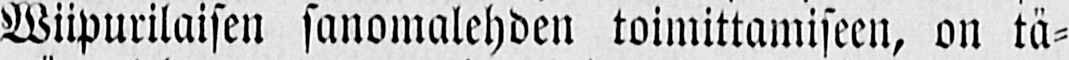Wiipurilaisen sanomalehden toimittamiseen, on tä-
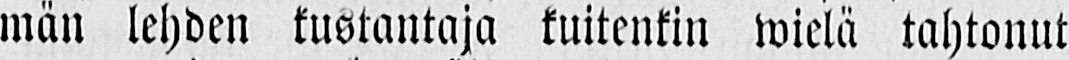män lehden kustantaja kuitenkin wielä tahtonut
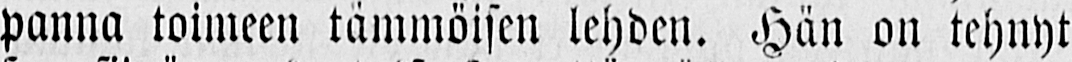panna toimeen tämmöisen lehden. Hän on tehnyt
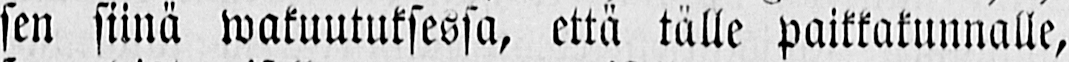sen siinä wakuutuksessa, että tälle paikkakunnalle,
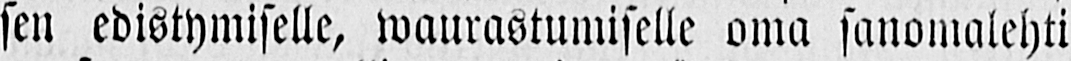sen edistymiselle, waurastumiselle oma sanomalehti
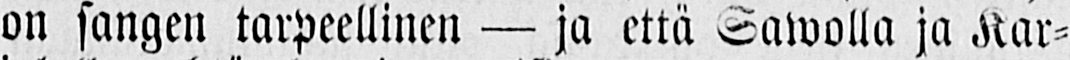on sangen tarpeellinen — ja että Sawolla ja Kar-
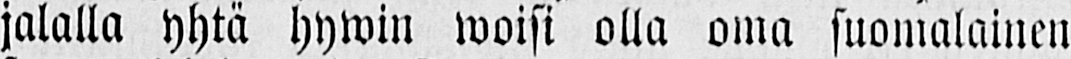jalalla yhtä hywin woisi olla oma suomalainen
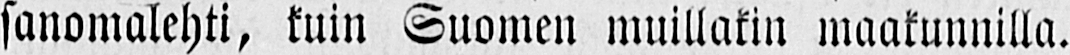sanomalehti, kuin Suomen muillakin maakunnilla.
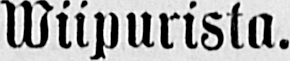Wiipurista.
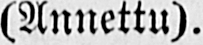(Annettu).
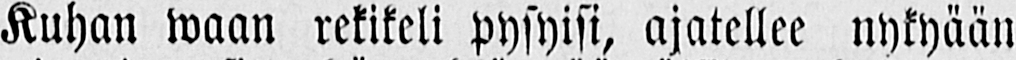Kuhan waan rekikeli pysyisi, ajatellee nykyään
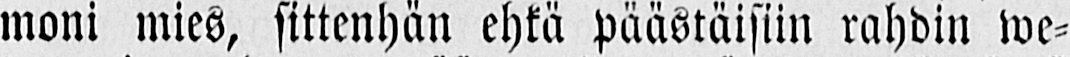moni mies, sittenhän ehkä päästäisiin rahdin we-
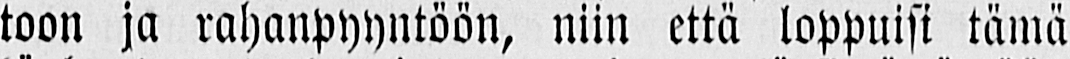toon ja rahanpyyntöön, niin että loppuisi tämä
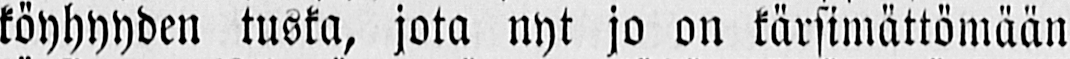köyhyyden tuska, jota nyt jo on kärsimättömään
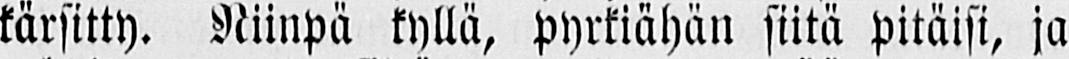kärsitty. Niinpä kyllä, pyrkiähän siitä pitäisi, ja
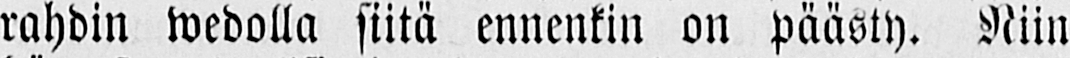rahdin wedolla siitä ennenkin on päästy. Niin
